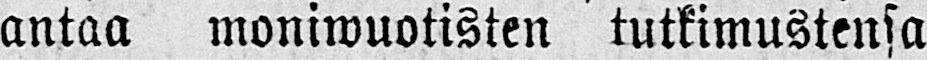antaa moniwuotisten tutkimustensa
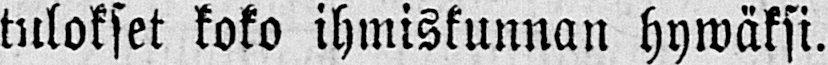tulokset koko ihmiskunnan hywäksi.
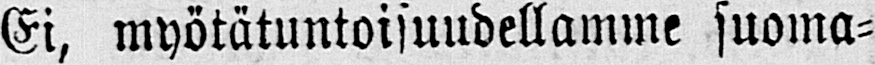Ei, myötätuntoisuudellamme suoma-
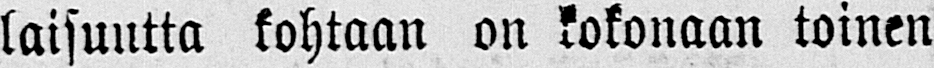laisuutta kohtaan on kokonaan toinen
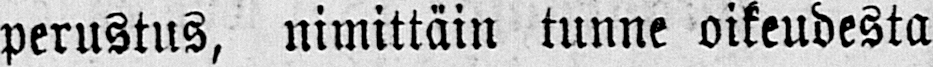perustus, nimittäin tunne oikeudesta
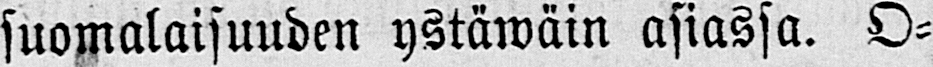suomalaisuuden ystäwäin asiassa. O-
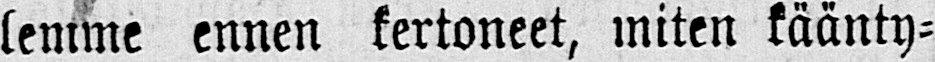lemme ennen kertoneet, miten käänty-
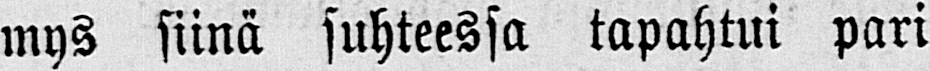mys siinä suhteessa tapahtui pari
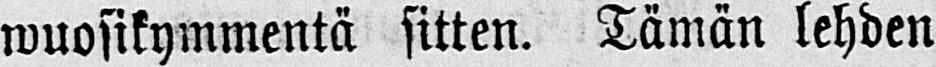wuosikymmentä sitten. Tämän lehden
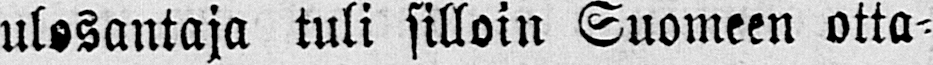ulosantaja tuli silloin Suomeen otta-
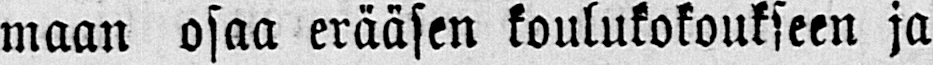maan osaa erääsen koulukokoukseen ja
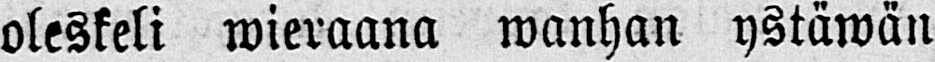oleskeli wieraana wanhan ystäwän
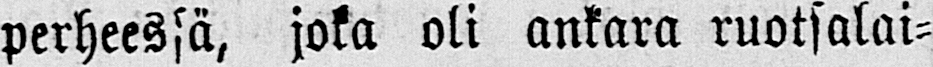perheessä, joka oli ankara ruotsalai-
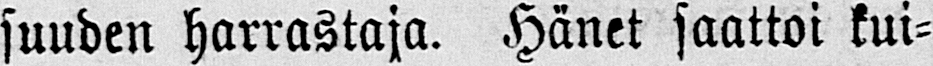suuden harrastaja. Hänet saattoi kui-
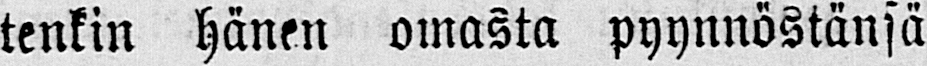tenkin hänen omasta pyynnöstänsä
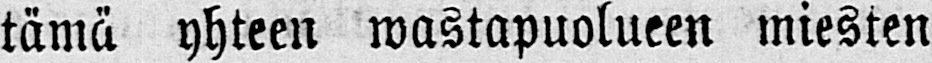tämä yhteen wastapuolueen miesten
